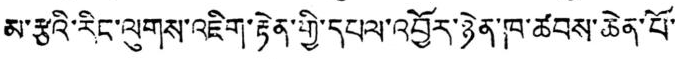མ་རྩའི་རིང་ལུགས་འཇིག་རྟེན་གྱི་དཔལ་འབྱོར་ཉེན་ཁ་ཚབས་ཆེན་པོ་
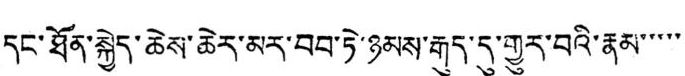དང་ཐོན་སྐྱེད་ཆེས་ཆེར་མར་བབ་ཏེ་ཉམས་རྒུད་དུ་གྱུར་བའི་རྣམ་་་་་
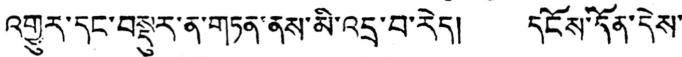འགྱུར་དང་བསྡུར་ན་གཏན་ནས་མི་འདྲ་བ་རེད། དངོས་དོན་དེས་
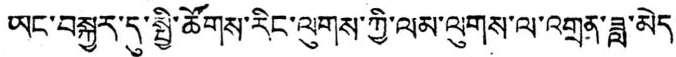ཡང་བསྐྱར་དུ་སྤྱི་ཚོགས་རིང་ལུགས་ཀྱི་ལམ་ལུགས་ལ་འགྲན་ཟླ་མེད་
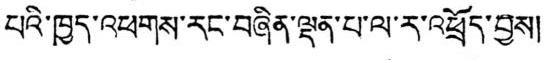པའི་ཁྱད་འཕགས་རང་བཞིན་ལྡན་པ་ལ་ར་འཕྲོད་བྱས།
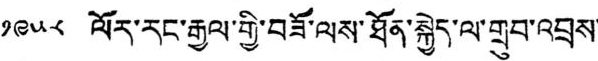༡༩༥༨ ལོར་རང་རྒྱལ་གྱི་བཟོ་ལས་ཐོན་སྐྱེད་ལ་གྲུབ་འབྲས་
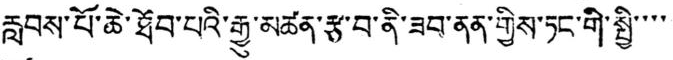རླབས་པོ་ཆེ་ཐོབ་པའི་རྒྱུ་མཚན་རྩ་བ་ནི་ཟབ་ནན་གྱིས་ཏང་གི་སྤྱི་་་་་
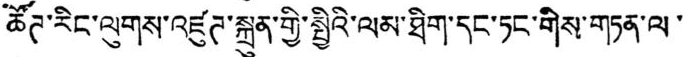ཚོཊ་རིང་ལུགས་འཛུཊ་སྐྲུན་གྱི་སྤྱིའི་ལམ་ཐིག་དང་ཏང་གིས་གཏན་ལ་
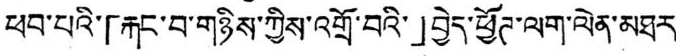ཕབ་པའི་「རྐང་བ་གཉིས་ཀྱིས་འགྲོ་བའི་」བྱེད་ཕྱོཊ་ལག་ལེན་མཐར་
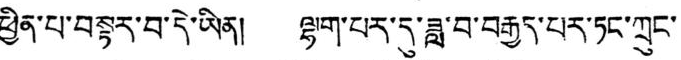ཕྱིན་པ་བསྟར་བ་དེ་ཡིན། ལྷག་པར་དུ་ཟླ་བ་བརྒྱད་པར་ཏང་ཀྲུང་
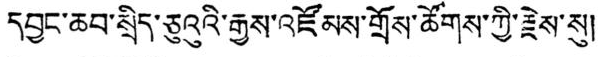དབྱང་ཆབ་སྲིད་ཅུའུའི་རྒྱས་འཛོམས་གྲོས་ཚོགས་ཀྱི་རྗེས་སུ།
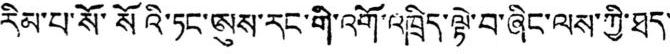རིམ་པ་སོ་སོའི་ཏང་ཨུས་རང་གི་འགོ་འཁྲིད་ལྟེ་བ་ཞིང་ལས་ཀྱི་ཐད་
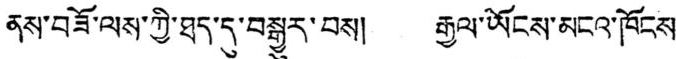ནས་བཟོ་ལས་ཀྱི་ཐད་དུ་བསྒྱུར་བས། རྒྱལ་ཡོངས་མངའ་ཁོངས་
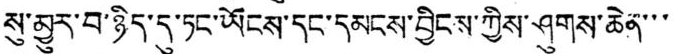སུ་མྱུར་བ་ཉིད་དུ་ཏང་ཡོངས་དང་དམངས་བྱིངས་ཀྱིས་ཤུགས་ཆེན་་་་
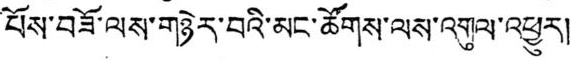པོས་བཟོ་ལས་གཉེར་བའི་མང་ཚོགས་ལས་འགུལ་འཕྱུར།
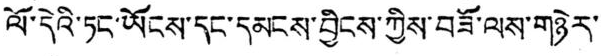ལོ་དེའི་ཏང་ཡོངས་དང་དམངས་བྱིངས་ཀྱིས་བཟོ་ལས་གཉེར་་
